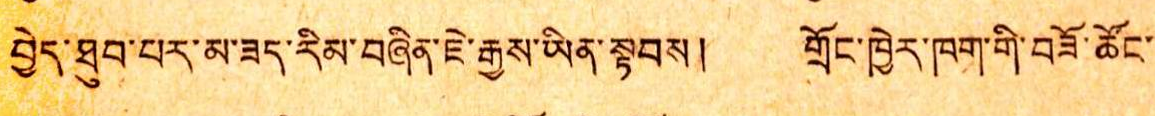བྱེད་ཐུབ་པར་མ་ཟད་རིམ་བཞིན་ཇེ་རྒྱས་ཡིན་སྟབས། གྲོང་ཁྱེར་ཁག་གི་བཟོ་ཚོང་
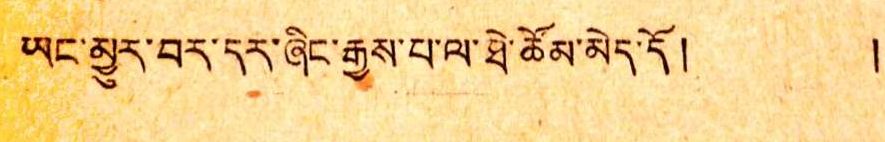ཡང་མྱུར་བར་དར་ཞིང་རྒྱས་པ་ལ་ཐེ་ཚོམ་མེད་དོ། །
